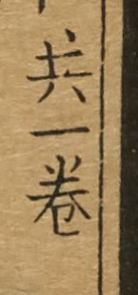共一卷
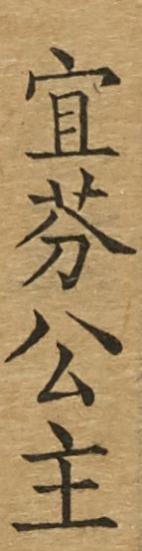宜芬公主
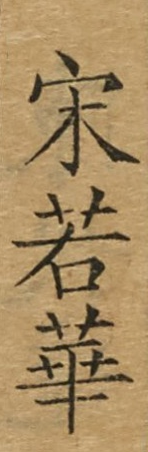宋若華
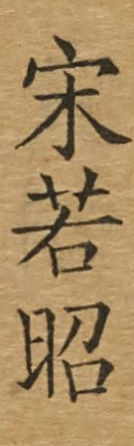宋若昭
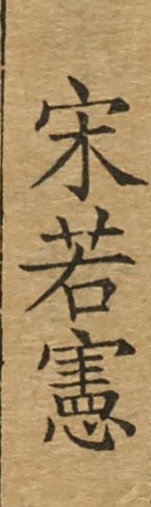宋若憲
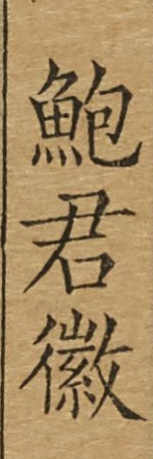鮑君徽
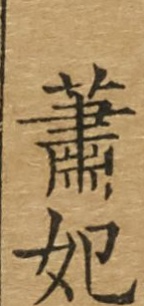蕭妃
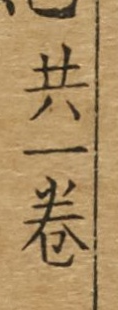共一卷
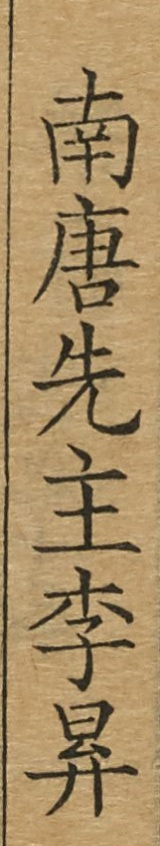南唐先主李昪
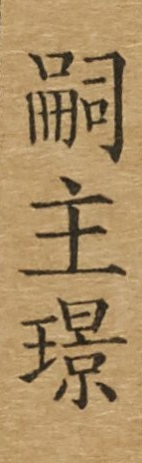嗣主璟
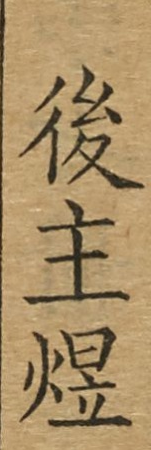後主煜
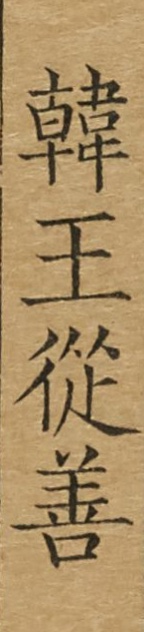韓王從善
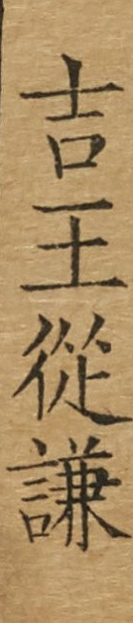吉王從謙
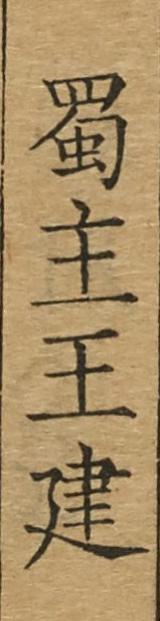蜀主王建
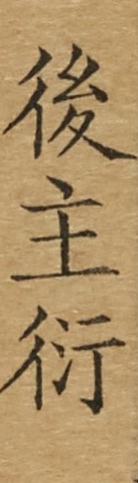後主衍
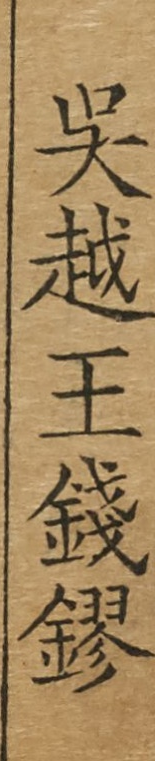吳越王錢鏐
